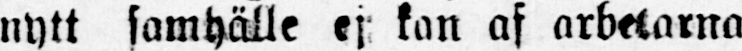nytt samhälle ej kan af arbetarna
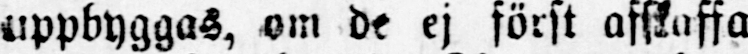uppbyggas, om de ej först afskaffa
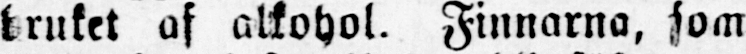bruket af alkohol. Finnarna, som
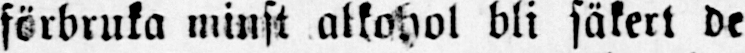förbruka minst alkohol bli säkert de
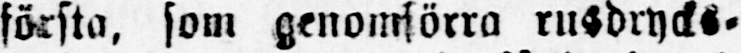första, som genomförra rusdrycks-
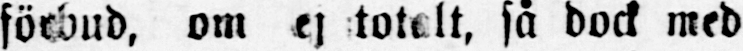förbud, om ej totalt, så dock med
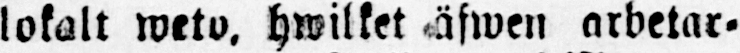lokalt weto, hwilket äfwen arbetar-
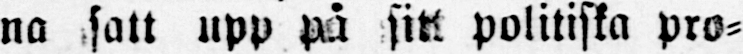na satt upp på sitt politiska pro-
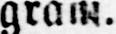gram.
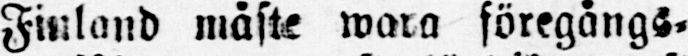Finland måste wara föregångs-
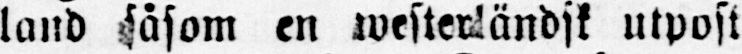land såsom en westerländsk utpost
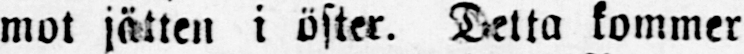mot jätten i öster. Detta kommer
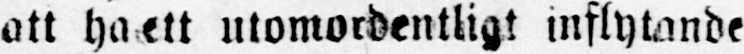att ha ett utomordentligt inflytande
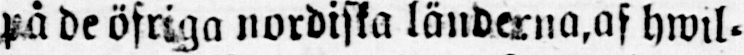på de öfriga nordiska länderna,af hwil-
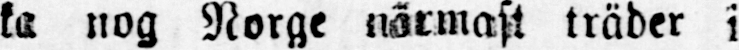ka nog Norge närmast träder i
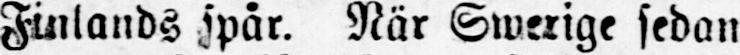Finlands spår. När Swerige sedan
